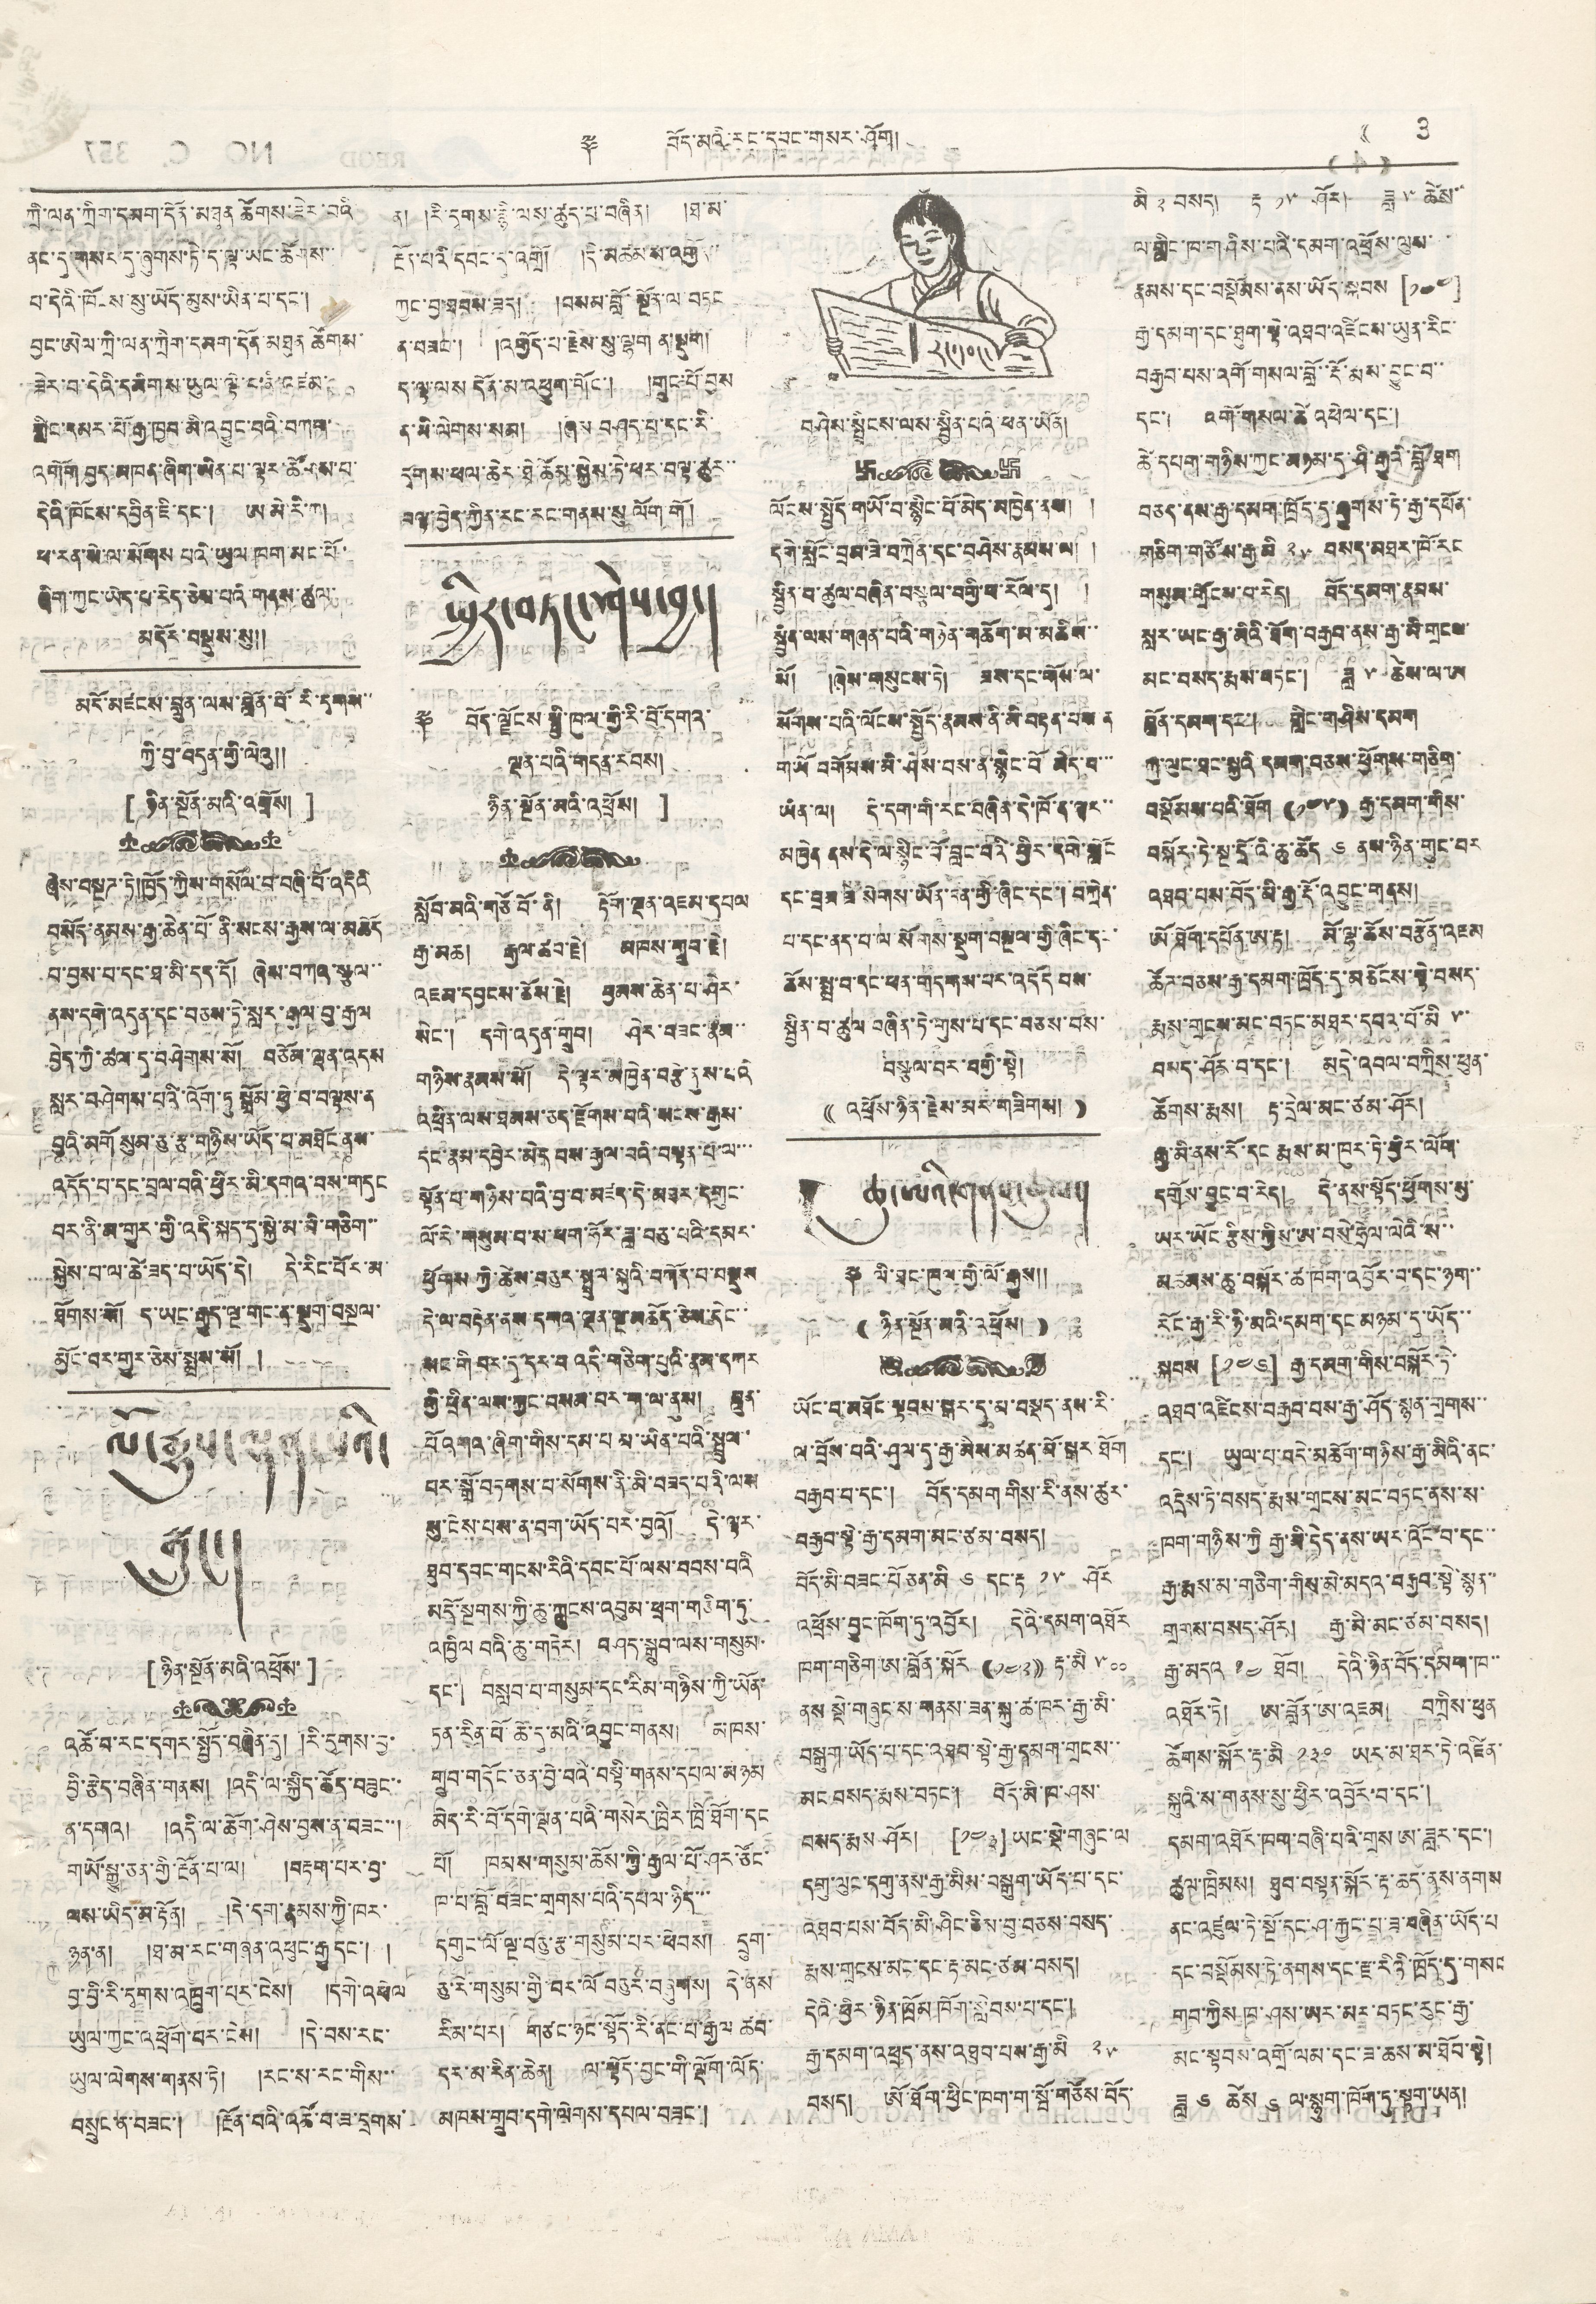༈ བོད་མའི་རང་དབང་གསར་ཤོག། (( 3
ཀྲི་ལན་ཀྲིག་དམག་དོན་མཐུན ཚོགས་ཟེར་བའི
ནང་དུ་གསར་དུ་ཞུགས་ཏེ་ད་ལྟ་ཡང་ཚོགས་་
པ་དེའི་ཁོངས་སུ་ཡོད་མུས་ཡིན་པ་དང་།
བྱང་ཨེལ་ཀྲི་ལན་ཀྲིག་དམག་དོན་མཐུན ཚོགས་
ཟེར་བ་དེའི་དམིགས་ཡུལ་ལྟེ་བ་ནི་འཛམ་
གླིང་དམར་པོ་རྒྱ་ཁྱབ་མི་འབྱུང་བའི་བཀབ་
འགོག་བྱད་མཁན་ཞིག་ཡིན་པ་ལྟར་ཚོགས་པ་
དེའི་ཁོངས་དབྱིན་ཇི་དང་། ཨ་མེ་རི་ཀ།
ཕ་རན་སེ་ལ་སོགས པའི་ཡུལ་ཁག་མང་པོ་
ཞིག་ཀྱང་ཡོད་པ་རེད་ཅེས་པའི་གནས་ཚུལ་
མདོར་བསྡུས་སུ།།
མདོ་མཛངས་བླུན་ལས་བློན་པོ་རི་དྭགས་་
ཀྱི་བུ་བདུན་གྱི་ལེའུ།།
[ ཉིན་སྔོན་མའི་འཕྲོས། ]
རང་དབང་
ཞེས་བསྔཌ་ཏེ།ཁྱོད་ཀྱིས་གསོལ་པ་བཞི་པོ་འདིའི
བསོད་ནམས་རྒྱ་ཆེན་པོ་ནི་སངས་རྒྱས་ལ་མཆོད
པ་བྱས་པ་དང་ཐ་མི་དད་དོ། ཞེས་བཀའ་སྩལ་་
ནས་དགེ་འདུན་དང་བཅས་ཏེ་སླར་རྒྱལ་བུ་རྒྱལ
བྱེད་ཀྱི་ཚལ་དུ་བཤེགས་སོ། བཅོམ་ལྡན་འདས
སླར་བཤེགས་པའི་འོག་ཏུ སྒྲོན་ཕྱེ་བ་བལྟས་ན
བྱའི་མགོ སུམ་ཅུ་རྩ་གཉིས་ཡོད་པ་མཐོང་ནས་
འདོད་པ་དང་བྲལ་པའི་ཕྱིར་མི་དགའ་བས་གདུང
བར་ནི་མ་གྱུར་གྱི་འདི་སྐད་དུ་སྐྱེ་མ་མི་གཅིག་་
སྐྱེས་པ་ལ་ཚེ་ཟད་པ་ཡོད་དེ། དེ་རིང་པོར་མ་
ཐོགས་སོ། ད་ཡང་རྒྱུད་ལྔ་གང་ན་སྡུག་བསྔལ་
མྱོང་བར་གྱུར་ཅེས་སྨྲས་སོ། །
ལོ་རྒྱུས་ལྡན་པའི་
སྒྲུང་།
[ ཉིན་སྔོན་མའི་འཕྲོས་ ]
འཚོ་བ་རང་དགར་སྤྱོད་བཞིན་དུ། །རི་དྭགས་བྱ་
བྱི་རྩེད་བཞིན་གནས། །འདི་ལ་སྐྱིད་ཚོད་བཟུང་་
ན་དགའ། །འདི་ལ་ཆོག་ཤེས་བྱས་ན་བཟང་་།
གཡོ་སྒྱུ་ཅན་གྱི་རྔོན་པ་ལ། །བརྟག་པར་བྱ་
ལས་ཡིད་མ་རྟོན། །དེ་དག་རྣམས་ཀྱི་ཁར་
ཉན་ན། །ཐ་མ་རང་གཞན་འཕུང་རྒྱུ དང་། །
བྱ་བྱི་རི་དྭགས་འཁྲུག་པར་ངེས། །དགེ་འཕེལ
ཡུལ་ཀྱང་འཕྲོག་པར་ངེས། །དེ་བས་རང་
ཡུལ་ལེགས་གནས་ཏེ། །རང་ས་རང་གིས་་
བསྲུང་ན་བཟང་། །རྔོན་པའི་འཚོ་བ་ཟ་དྲགས་
ན། །རི་དྭགས་རྙི་ལས་ཚུད་པ་བཞིན། །ཐ་མ་
རྔོན་པའི་དབང་དུ་འགྲོ། །དེ་མཚམས་འགྱོད་
ཀྱང་བྱ་ཐབས་ཟད། །བསམ་བློ་སྔོན་ལ་བཏང
ན་བཟང་། །འགྱོད་པ་རྗེས་སུ་ལྷག ན་སྡུག།
ད་ལྟ་ལས དོན་མ་འཕྱུག་གོང་། །གྲུང་པོ་བྱས
མ་ནི་ལེགས་སམ། །ཞེས བཤད་པ་དང་རི་
དྭགས་ཕལ་ཆེར་ཐེ་ཚོས་སྐྱེས་ཏེ་ཕར་བལྟ་ཚུར་་
བལྟ་བྱེད་ཀྱིན་རང་རང་གནས་སུ ལོག་གོ།
སྤྱིར་བཏང་ཤེས་བྱ།
༈ བོད་ལྗོངས་སྤྱི་ཁུལ་གྱི་རི་བོ་དགའ་
ལྡན་པའི་གདན་རབས།
ཉིན་སྔོན་མའི་འཕྲོས། ]
སློང་མའི་གཙོ་བོ་ནི། རྟོག་ལྡན་འཇམ་དཔལ
རྒྱ་མཆ། རྒྱལ་ཚབ་རྗེ། མཁས་གྲུབ་རྗེ།
འཇམ་དབྱངས་ཆོས་རྗེ། བྱམས་ཆེན་པ་ཤེར་
སེང་། དགེ་འདུན་གྲུབ། ཤེར་བཟང་རྣམ་་
གཉིས་རྣམས་སོ། དེ་ལྟར་མཁྱེན་བརྩེ་ནུས་པའི
འཕྲིན་ལས་ཐབས་ཅད་རྫོགས་པའི་སངས་རྒྱས་
དང་རྣམ་དབྱེར་མེད པས་རྒྱལ་བའི་བསྟན་པ་ལ་་་
སྟོན་པ་གཉིས་པའི་བྱ་བ་མཛད་དེ་མཐར་དགུང་
ལོ་རེ་གསུམ་པ་ས་ཕག་ཧོར་ཟླ་བཅུ་པའི་དམར་
ཕྱོགས ཀྱི་ཚེས་བཅུར་སྤྲུལ་སྐུའི་བཀོད་པ་བསྡུས
དེ་ལ་བརྟེན་ནས་དགའ་ལྡན་ལྔ་མཆོད་ཅེས་དེང་་
སང་གི་བར་དུ་དར་བ འདི་གཅིག་པུའི་རྣམ་དཀར
གྱི་ཕྲིན་ལས་ཀྱང་བསམ་པར་ག་ལ་ནུས། བླུན་
པོ འགའ་ཞིག་གིས་དམ་པ མ་ཡིན་པའི་སྤྲུལ་
པར་སྒྲོ་བཏགས་པ་སོགས་ནི་མི་བཟད་པའི་ལས
སུ་ངེས་པས་ན་བག་ཡོད་པར་བྱའོ། དེ་ལྟར་
ཐུབ་དབང་གངས་རིའི་དབང་པོ་ལས་བབས་པའི
མདོ་སྔགས་ཀྱི་ཆུ་ཀླུངས་འབུམ་ཕྲག་གཅིག་ཏུ་
འཁྱིལ བའི་ཆུ་གཏེར། བཤད་སྒྲུབ་ལས་གསུམ་
དང་། བསླབ་པ་གསུམ་དང་རིམ་གཉིས་ཀྱི་ཡོན་
ཏན་རིན་པོ་ཆོ་དུ་མའི་འབྱུང་གནས། མཁས་
གྲུབ་གདོང་ཅན་བྱེ་བའི་བསྟི་གནས་དཔལ་མཉམ
མེད་རི་བོ་དགེ་སྡན་པའི་གསེར་ཁྲིར་ཁྲི་ཐོག་དང
པོ། ཁམས་གསུམ་ཆོས་ཀྱི་རྒྱལ་པོ་ཤར་ཙོང་
ཁ་པ་བློ་བཟང་གྲགས་པའི་དཔལ་ཉིད་་་
དགུང་ལོ་ལྔ་བཅུ་རྩ་གསུམ་པར་ཕེབས། དྲུག་
ཅུ་རེ་གསུམ་གྱི་བར་པོ་བཅུར་བཞུགས། དེ་ནས
རིམ་པར། གཙང་ཉང་སྟོད་རི་ནང་པ་རྒྱལ ཚབ་
དར་མ་རིན་ཆེན། ལ་སྟོད་བྱང་གི་ལྡོག་ལོད་
མཁས་གྲུབ་དགེ་ལེགས་དཔལ་བཟང་།
བཤེས་སྤྲིངས་ལས་སྦྱིན་པའི ཕན་ཡོན།
ལོངས་སྤྱོད་གཡོ་བ་སྙིང་པོ་མེད་མཁྱེན་ནམ། །
དགེ་སློང་བྲམ་ཟེ་བཀྲེན་དང་བཤེས་རྣམས་ལ། །
སྦྱིན་བ་ཚུལ་བཞིན་བསྩལ་བགྱི་ཕ་རོལ་དུ། །
སྦྱིན་ལས་གཞན་པའི་གཉེན་གཆོག་མ་མཆིས་་
སོ། །ཞེས་གསུངས་ཏེ། ཟས་དང་གོས་ལ་
སོགས་པའི་ལོངས་སྤྱོད་རྣམས་ནི་མི་བརྟན་པས ན
གཡོ བགོམས་མི་ཤེས་པས་ན་སྙིང་པོ མེད་པ་་་
ཡིན་ལ། དེ་དག་གི་རང་བཞིན་དེ་ཁོ་ན་ལྟར་་
མཁྱེན ནས་དེ་ལ་སྙིང་པོ་བླང་བའི་ཕྱིར་དགེ་སློང
དང་བྲམ་ཟེ་སོགས་ཡོད་ངན་གྱི་ཞིང་དང་། བཀྲིམ་
པ་དང་ནད་པ་ལ་སོགས་སྡུག་བསྔལ་གྱི་ཞིང་དང་
ཆོས་སྨྲ་བ་དང་ཕན་གདགས་པར་འདོད་པས་
སྦྱིན་བ་ཚུལ་བཞིན་ཏེ་གུས་པ་དང་བཅས་བས་
བསྩལ་བར་བགྱི་སྟེ།
(( འཕྲོས་ཉིན་རྗེས་མར་གཟིགས། ))
ཆུ་ཨའི་གནས་ཚུལ།
༈ ལི་ཐང་ཁུལ་གྱི་ལོ་རྒྱུས།།
(( ཉིན་སྔོན་མའི་འཕྲོས། ))
ཡོང་བ་མཐོང་སྟབས་སྒང་དུ་མ་བསྡད་ནས་རི་
ལ་བྲོས་པའི་ཤུལ་དུ་རྒྱ་མིས་མཚན་མོ་སྒར་ཐོག
བརྒྱབ་པ་དང་། བོད་དམག་གིས་རི་ནས་ཚུར་
བརྒྱབ་སྟེ་རྒྱ་དམག་མང་ཙམ་བསད།
བོད་མི་བཟང་པོ་ཅན་མི ༦ དང་རྟ ༡༥ ཤོར
འཕྲོས་བྱུང་ཁོག་ཏུ་འབྱོར། དེའི་དམག་འཐོར
ཁག་གཅིག་ཨ་བློན་སྐོར ((༡༤༢)) རྟ་མི་ ༥༠༠
ནས་སྡེ་གཞུང་ས་གནས་ཟན་སྐུ་ཚ་ཁར་རྒྱ་མི་
བསྒུག་ཡོད་པ་དང་འཐབ་སྟེ་རྒྱ་དམག་གྲངས་་
མང བསད་རྨས་བཏང་། བོད་མི་ཁ་ཤས་
བསད་རྨས ཤོར། [༡༤༣] ཡང་སྡེ་གཞུང་ལ
དགུ་ལུང་དགུ་ནས་རྒྱ་མིས་བསྒུག་ཡོད་པ་དང་
འཐབ་པས་བོད་མི་ཤིང་ཅིས་སུ་བཅས་བསད་
རྨས་གྲངས་མང་དང་རྟ་མང་ཙམ་བསད།
དེའི་ཕྱིར་ཉིན་ཁྲོམ་ཁོག་སླེབས་པ་དང་།
རྒྱ་དམག་འཕྲད་ནས་འཐུབ་པས་རྒྱ་མི ༢༥
བསད། ཨོ་ཐོག་ཕྱིང་ཁག་ག་སྦོ་གཅོས་བོད་
མི་ ༢ བསད། རྟ ༡༥ ཤོར། ཟླ ༥ ཚེས་་
ལ་གླིང་ཁ་གཤིས་པའི་དམག་འཕྲོས་ལུས་་་
རྣམས་དང་བསྡོམས་ནས་ཡོས་སྐབས་ [༡༤༤]
རྒྱ་དམག་དང་ཐུག་སྟེ་འཐབ་འཛིངས་ཡུན་རིང་
བརྒྱབ་པས་འགོ་གསལ་བློ་་རྡོ་རྨས་བྱུང་བ་་
དང་། འགོ་གསལ་ཚེ འཕེལ་དང་།
ཚེ་དཔག་གཉིས་ཀྱང་མཉམ་དུ་ཤི་རྒྱུའི་བློ་ཐག
བཅད་ནས་རྒྱ་དམག་ཁྲོད་དུ་རྒྱུགས་ཏེ་རྒྱ་དཔོན་
གཅིག་གཙོས་རྒྱ མི ༢༥ བསད་མཐར་ཁོ་རང
གསུམ་གྲོངས་པ་རེད། བོད་དམག་རྣམས་
སླར་ཡང་རྒྱ་མིའི་ཐོག་བརྒྱབ་ནས་རྒྱ་མི་གྲངས་
ནང་བསད་རྨས་བཏང་། ཟླ ༥ ཚེས་ལ་ཨ
བློན་དམག་དང་། གླིང་གཤིས་དམག
ཀུ་ལུང་ཐང་སྐྱའི་དམག་བཅས་ཕྱོགས་གཅིག་
བསྡོམས་པའི་ཐོག ((༡༤༥)) རྒྱ་དམག་གིས་
བསྐོར་ཏེ་སྔ་དྲོ་འི་ཆུ་ཚོད ༦ ནས་ཉིན་གུང་བར
འཐབ་པས་བོད་མི་རྒྱ་རྡོ་འབྱུང་གནས།
ཨོ་ཐོག་དཔོན་ཨ་རྟ། མོ་ལྷ་ཆོས་བརྩོན་འཇམ
ཚོཌ་བཅས་རྒྱ་དམག་ཁྲོད་དུ་མཆོངས་སྟེ་བསད་
རྨས་གྲངས་མང་བཏང་མཐར་དབའ་པོ་མི ༥་
བསད་ཤོར་བ་དང་། མདེ་འབལ་བཀྲིས་ཕུན་
ཚོགས་རྨས། རྟ་དྲེལ་མང་ཙམ་ཤོར།
རྒྱ་མི་ནས་རོ་དང་རྨས་མ་ཁུར་ཏེ་ཕྱིར་ལོག་
དགོས་བྱུང་བ་རེད། དེ་ནས་སྟོད་ཕྱོགས་སུ་
ཡར་ཡོང་རྩིས་ཀྱིས་ཨ་བསེ་ཧྲེལ་ལེའི་ས་་
མཚམས་ཆུ་བསྐོར་ཚ་ཁག་འབྱོར་བ་དང་ཉག་་
རོང་རྒྱ་རི་ཉི་མའི་དམག་དང་མཉག་དུ་ཡོད་་
སྐབས་ [༡༤༦] རྒྱ་དམག་གིས་བསྐོར་ཏེ་
འཐབ་འཛིངས་བརྒྱབ་བས་རྒྱ་ཤོད་སྙན་གྲགས་་
དང་། ཡུལ་པ་བདེ་མཆོག་གཉིས་རྒྱ་མིའི་ནང་
འདྲེས་ཏེ་བསད་རྨས་གྲངས་མང་བཏང་ནས་ས་
ཁག་གཉིས་ཀྱི རྒྱ་མི་དེད་ནས་ཡར་འོང་བ་དང་་
རྒྱ་རྨས་མ་གཅིག་གིས་མེ་མདའ་བརྒྱབ་སྟེ་སྙན་་
གྲགས་བསད་ཤོར། རྒྱ་མི་མང་ཙམ་བསད།
རྒྱ་མདའ ༡༤ ཐོབ། དེའི་ཉིན་བོད་དམག་ཁ་་
འཐོར་ཏེ། ཨ་བློན་ཨ་འཇམ། བཀྲིས་ཕུན
ཚོགས་སྐོར་རྟ་མི་ ༡༣༠ ཡར་མ་ཐར་ཏེ་འཛིན་
སྐུའི་ས་གནས་སུ་ཕྱིར་འབྱོར་བ་དང་།
དམག་འཐོར་ཁག་བཞི་པའི་གྲས ཨ་ཟླར་དང་།
ཚུལ་ཁྲིམས། ཐུབ་བསྟན་སྐོར་རྟ་ཆད་ནས་ནགས
ནང་འཛུལ་ཏེ་སྔོ་དང་ཤ་རྐྱང་པ་ཟ་བཞིན་ཡོད་པ
དང་བསྡོམས་ཏེ་ནགས་དང་རྫ་རེའི་ཁྲོད་དུ་གསང
གབ་ཀྱིས ཁ་ཤས་ཡར་མར་བཏང་རུང་རྒྱ་
མང་སྟབས་འགྲོ་ལམ་དང་ཟ་ཆས་མ་ཐོབ་སྟེ།
ཟླ ༦ ཚེས ༦ ལ་སྙུག་ཁོག་ཏུ་སྟག་ཡན།
